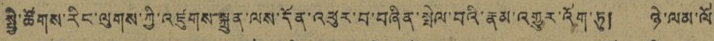སྤྱི་ཚོགས་རིང་ལུགས་ཀྱི་འཛུགས་སྐྲུན་ལས་དོན་འཕུར་པ་བཞིན་སྤེལ་བའི་རྣམ་འགྱུར་འོག་ཏུ། ཉེ་ལམ་ལོ
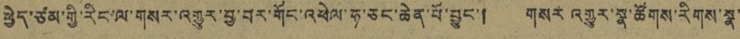ཕྱེད་ཙམ་གྱི་རིང་ལ་གསར་འགྱུར་བྱ་བར་གོང་འཕེལ་ཧ་ཅང་ཆེན་པོ་བྱུང་། གསར་འགྱུར་སྣ་ཚོགས་རིགས་སྣ་
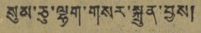སུམ་ཅུ་ལྷག་གསར་སྐྲུན་བྱས།
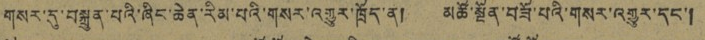གསར་དུ་བསྐྲུན་པའི་ཞིང་ཆེན་རིམ་པའི་གསར་འགྱུར་ཁྲོད་ན། མཚོ་སྔོན་བཟོ་པའི་གསར་འགྱུར་དང་།
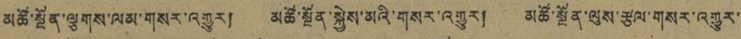མཚོ་སྔོན་ལྕགས་ལམ་གསར་འགྱུར། མཚོ་སྔོན་སྐྱེས་མའི་གསར་འགྱུར། མཚོ་སྔོན་ལུས་རྩལ་གསར་འགྱུར་
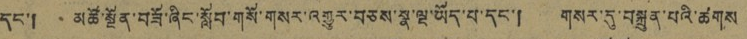དང་། མཚོ་སྔོན་བཟོ་ཞིང་སློབ་གསོ་གསར་འགྱུར་བཅས་སྣ་ལྔ་ཡོད་པ་དང་། གསར་དུ་བསྐྲུན་པའི་ཚགས་
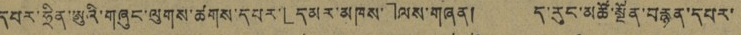དབར་ཧྲིན་ཨུའི་གཞུང་ལུགས་ཚགས་དཔར་「དམར་མཁས་」ལས་གཞན། ད་རུང་མཚོ་སྔོན་བརྙན་དཔར་
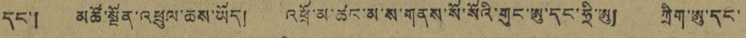དང་། མཚོ་སྔོན་འཕྲུལ་ཆས་ཡོད། འཕྲོ་མ་ཚང་མ་ས་གནས་སོ་སོའི་གུང་ཨུ་དང་ཧྲི་ཨུ། ཀྲིག་ཨུ་དང་
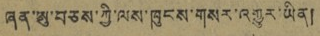ཞན་ཨུ་བཅས་ཀྱི་ལས་ཁུངས་གསར་འགྱུར་ཡིན།
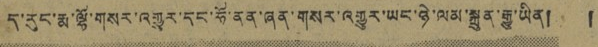ད་རུང་རྨ་ལྷོ་གསར་འགྱུར་དང་ཧོ་ནན་ཞན་གསར་འགྱུར་ཡང་ཉེ་ལམ་སྐྲུན་རྒྱུ་ཡིན། །
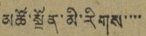མཚོ་སྔོན་མི་རིགས་་་་
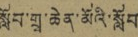སློབ་གྲྭ་ཆེན་མོའི་སློབ
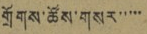གྲོགས་ཚོས་གསར་་་་་
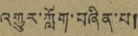འགྱུར་ཀློག་བཞིན་པ།
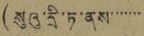(སུའུ་དྲི་ཏ་ནས་་་་་་་
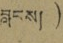བླངས།)
